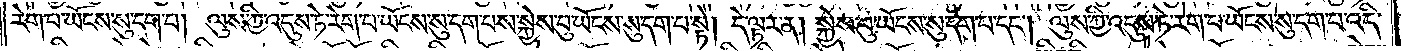རེག་པ་ཡོངས་སུ་དག་པ། ལུས་ཀྱི་འདུས་ཏེ་རེག་པ་ཡོངས་སུ་དག་པས་སྐྱེས་བུ་ཡོངས་སུ་དག་པ་སྟེ། དེ་ལྟར་ན། སྐྱེས་བུ་ཡོངས་སུ་དག་པ་དང༌། ལུས་ཀྱི་འདུས་ཏེ་རེག་པ་ཡོངས་སུ་དག་པ་འདི་
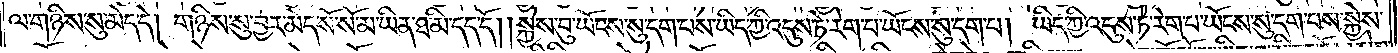ལ་གཉིས་སུ་མེད་དེ། གཉིས་སུ་བྱར་མེད་སོ་སོ་མ་ཡིན་ཐ་མི་དད་དོ། །སྐྱེས་བུ་ཡོངས་སུ་དག་པས་ཡིད་ཀྱི་འདུས་ཏེ་རེག་པ་ཡོངས་སུ་དག་པ། ཡིད་ཀྱི་འདུས་ཏེ་རེག་པ་ཡོངས་སུ་དག་པས་སྐྱེས་
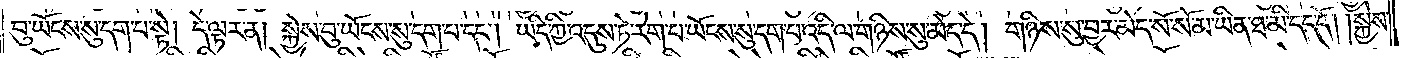བུ་ཡོངས་སུ་དག་པ་སྟེ། དེ་ལྟར་ན། སྐྱེས་བུ་ཡོངས་སུ་དག་པ་དང༌། ཡིད་ཀྱི་འདུས་ཏེ་རེག་པ་ཡོངས་སུ་དག་པ་འདི་ལ་གཉིས་སུ་མེད་དེ། གཉིས་སུ་བྱར་མེད་སོ་སོ་མ་ཡིན་ཐ་མི་དད་དོ། །སྐྱེས་
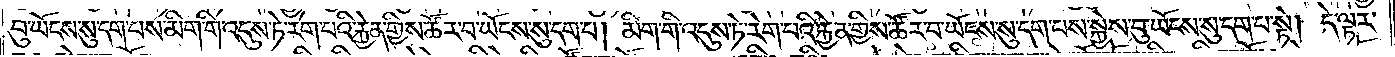བུ་ཡོངས་སུ་དག་པས་མིག་གི་འདུས་ཏེ་རེག་པའི་རྐྱེན་གྱིས་ཚོར་བ་ཡོངས་སུ་དག་པ། མིག་གི་འདུས་ཏེ་རེག་པའི་རྐྱེན་གྱིས་ཚོར་བ་ཡོངས་སུ་དག་པས་སྐྱེས་བུ་ཡོངས་སུ་དག་པ་སྟེ། དེ་ལྟར་
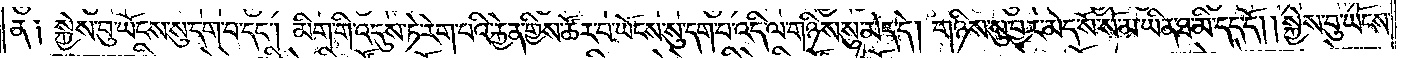ན༑ སྐྱེས་བུ་ཡོངས་སུ་དག་པ་དང༌། མིག་གི་འདུས་ཏེ་རེག་པའི་རྐྱེན་གྱིས་ཚོར་བ་ཡོངས་སུ་དག་པ་འདི་ལ་གཉིས་སུ་མེད་དེ། གཉིས་སུ་བྱར་མེད་སོ་སོ་མ་ཡིན་ཐ་མི་དད་དོ། །སྐྱེས་བུ་ཡོངས་
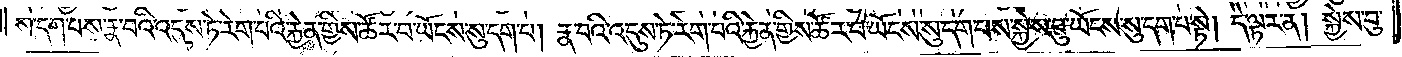སུ་དག་པས་རྣ་བའི་འདུས་ཏེ་རེག་པའི་རྐྱེན་གྱིས་ཚོར་བ་ཡོངས་སུ་དག་པ། རྣ་བའི་འདུས་ཏེ་རེག་པའི་རྐྱེན་གྱིས་ཚོར་བ་ཡོངས་སུ་དག་པས་སྐྱེས་བུ་ཡོངས་སུ་དག་པ་སྟེ། དེ་ལྟར་ན། སྐྱེས་བུ་
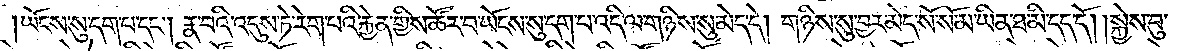ཡོངས་སུ་དག་པ་དང༌། རྣ་བའི་འདུས་ཏེ་རེག་པའི་རྐྱེན་གྱིས་ཚོར་བ་ཡོངས་སུ་དག་པ་འདི་ལ་གཉིས་སུ་མེད་དེ། གཉིས་སུ་བྱར་མེད་སོ་སོ་མ་ཡིན་ཐ་མི་དད་དོ། །སྐྱེས་བུ་
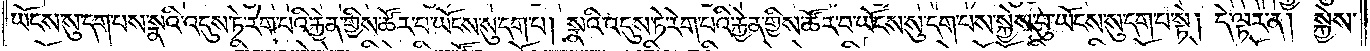ཡོངས་སུ་དག་པས་སྣའི་འདུས་ཏེ་རེག་པའི་རྐྱེན་གྱིས་ཚོར་བ་ཡོངས་སུ་དག་པ། སྣའི་འདུས་ཏེ་རེག་པའི་རྐྱེན་གྱིས་ཚོར་བ་ཡོངས་སུ་དག་པས་སྐྱེས་བུ་ཡོངས་སུ་དག་པ་སྟེ། དེ་ལྟར་ན། སྐྱེས་
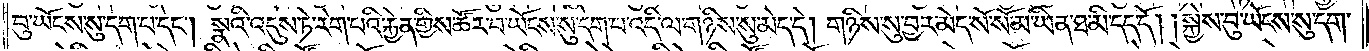བུ་ཡོངས་སུ་དག་པ་དང༌། སྣའི་འདུས་ཏེ་རེག་པའི་རྐྱེན་གྱིས་ཚོར་བ་ཡོངས་སུ་དག་པ་འདི་ལ་གཉིས་སུ་མེད་དེ། གཉིས་སུ་བྱར་མེད་སོ་སོ་མ་ཡིན་ཐ་མི་དད་དོ། །སྐྱེས་བུ་ཡོངས་སུ་དག་
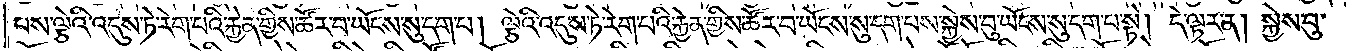པས་ལྕེའི་འདུས་ཏེ་རེག་པའི་རྐྱེན་གྱིས་ཚོར་བ་ཡོངས་སུ་དག་པ། ལྕེའི་འདུས་ཏེ་རེག་པའི་རྐྱེན་གྱིས་ཚོར་བ་ཡོངས་སུ་དག་པས་སྐྱེས་བུ་ཡོངས་སུ་དག་པ་སྟེ། དེ་ལྟར་ན། སྐྱེས་བུ་
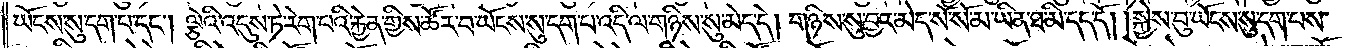ཡོངས་སུ་དག་པ་དང༌། ལྕེའི་འདུས་ཏེ་རེག་པའི་རྐྱེན་གྱིས་ཚོར་བ་ཡོངས་སུ་དག་པ་འདི་ལ་གཉིས་སུ་མེད་དེ། གཉིས་སུ་བྱར་མེད་སོ་སོ་མ་ཡིན་ཐ་མི་དད་དོ། །སྐྱེས་བུ་ཡོངས་སུ་དག་པས་
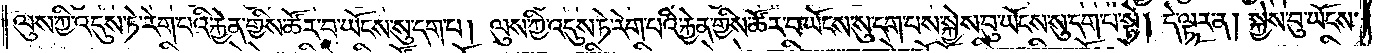ལུས་ཀྱི་འདུས་ཏེ་རེག་པའི་རྐྱེན་གྱིས་ཚོར་བ་ཡོངས་སུ་དག་པ། ལུས་ཀྱི་འདུས་ཏེ་རེག་པའི་རྐྱེན་གྱིས་ཚོར་བ་ཡོངས་སུ་དག་པས་སྐྱེས་བུ་ཡོངས་སུ་དག་པ་སྟེ། དེ་ལྟར་ན། སྐྱེས་བུ་ཡོངས་
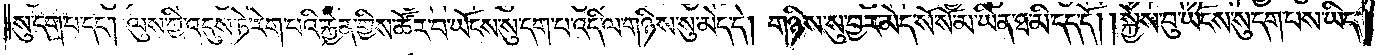སུ་དག་པ་དང༌། ལུས་ཀྱི་འདུས་ཏེ་རེག་པའི་རྐྱེན་གྱིས་ཚོར་བ་ཡོངས་སུ་དག་པ་འདི་ལ་གཉིས་སུ་མེད་དེ། གཉིས་སུ་བྱར་མེད་སོ་སོ་མ་ཡིན་ཐ་མི་དད་དོ། །སྐྱེས་བུ་ཡོངས་སུ་དག་པས་ཡིད་
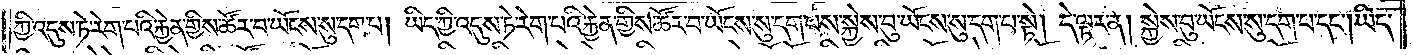ཀྱི་འདུས་ཏེ་རེག་པའི་རྐྱེན་གྱིས་ཚོར་བ་ཡོངས་སུ་དག་པ། ཡིད་ཀྱི་འདུས་ཏེ་རེག་པའི་རྐྱེན་གྱིས་ཚོར་བ་ཡོངས་སུ་དག་པས་སྐྱེས་བུ་ཡོངས་སུ་དག་པ་སྟེ། དེ་ལྟར་ན། སྐྱེས་བུ་ཡོངས་སུ་དག་པ་དང༌། ཡིད་
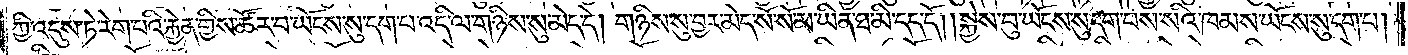ཀྱི་འདུས་ཏེ་རེག་པའི་རྐྱེན་གྱིས་ཚོར་བ་ཡོངས་སུ་དག་པས་འདི་ལ་གཉིས་སུ་མེད་དེ། གཉིས་སུ་བྱར་མེད་སོ་སོ་མ་ཡིན་ཐ་མི་དད་དོ། ། སྐྱེས་བུ་ཡོངས་སུ་དག་པས་སའི་ཁམས་ཡོངས་སུ་དག་པ།
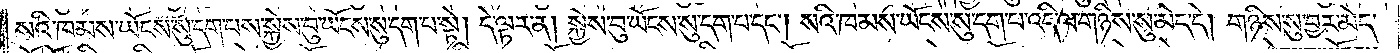སའི་ཁམས་ཡོངས་སུ་དག་པས་སྐྱེས་བུ་ཡོངས་སུ་དག་པ་སྟེ། དེ་ལྟར་ན། སྐྱེས་བུ་ཡོངས་སུ་དག་པ་དང༌། སའི་ཁམས་ཡོངས་སུ་དག་པ་འདི་ལ་གཉིས་སུ་མེད་དེ། གཉིས་སུ་བྱར་མེད་
